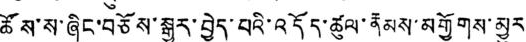ཚོས་ས་ཞིང་བཅོས་སྒྱུར་བྱེད་པའི་འདོད་ཚུལ་རྣམས་མགྱོགས་མྱུར
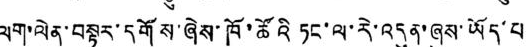ལག་ལེན་བསྟར་དགོས་ཞེས་ཁོ་ཚོའི ཏང་ལ་རེ་འདུན་ཞུས་ཡོད་པ
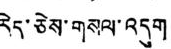རེད་ཅེས་གསལ་འདུག
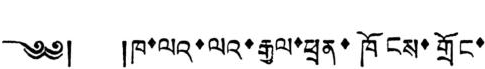༄༅། །ཁ་ལའ་ལའ་རྒྱལ་ཕྲན་ཁོངས་གྲོང་
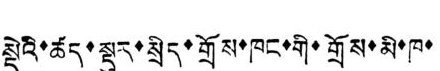སྡེའི་ཚད་སྡུར་སྲིད་གྲོས་ཁང་གི་གྲོས་མི་ཁ་
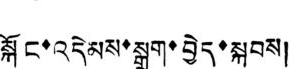སྐོང་འདེམས་སྒྲུག་བྱེད་སྐབས།
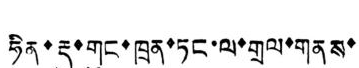ཧིན་རྡུ་གུང་ཁྲན་ཏང་ལ་གྲལ་གནས་
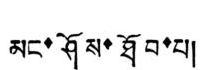མང་ཤོས་ཐོབ་པ།
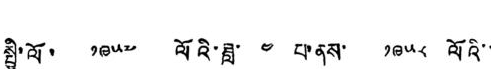སྤྱི་ལོ་ ༡༩༥༧ ལོའི་ཟླ་ ༤ པ་ནས་ ༡༩༥༨ ལོའི་་
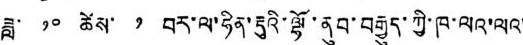ཟླ་ ༡༠ ཚེས་ ༡ བར་ལ་ཧིན་རྡུའི་ལྷོ་ནུབ་བརྒྱུད་ཀྱི་ཁ་ལའ་ལའ་
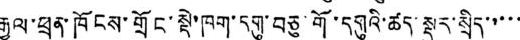རྒྱལ་ཕྲན་ཁོངས་གྲོང་སྡེ་ཁག་དགུ་བཅུ་གོ་དགུའི་ཚད་སྡུར་སྲིད་་་་་
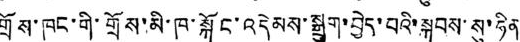གྲོས་ཁང་གི་གྲོས་མི་ཁ་སྐོང་འདེམས་སྒྲུབ་བྱེད་བའི་སྐབས་སུ་ཧིན
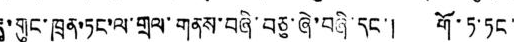རྡུ་གུང་ཁྲན་ཏང་ལ་གྲལ་གནས་བཞི་བཅུ་ཞེ་བཞི་དང་། གོ་ཏ་ཏང་
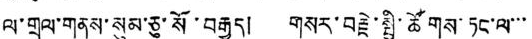ལ་གྲལ་གནས་སུམ་ཅུ་སོ་བརྒྱད། གསར་བརྗེ་སྤྱི་ཚོགས་ཏང་ལ་་་
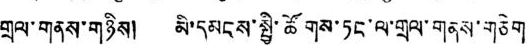གྲལ་གནས་གཉིས། མི་དམངས་སྤྱི་ཚོགས་ཏང་ལ་གྲལ་གནས་གཅིག
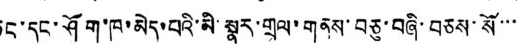ཏང་དང་ཤོག་ཁ་མེད་པའི་མི་སྣར་གྲལ་གནས་བཅུ་བཞི་བཅས་སོ་་་
